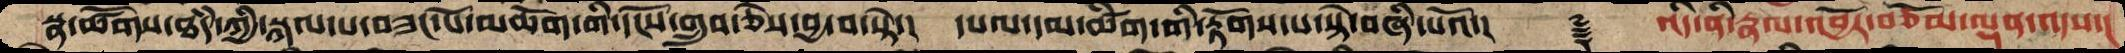སྣ་ཚོགས་ཐཾད་ཀྱི་སྐལ་པ་བཟང་པོ་མཆོག་གི་དངོས་གྲུབ་ཅེས་བྱ་བ་སྟེ་།  དཔལ་དམ་ཚིག་གི་རྟོགས་པ་སྟེ་བཞི་པའོ་།    ࿑  འདི་ནི་རྣལ་འབྱོར་བཅོམ་ལྡན་འདས་།
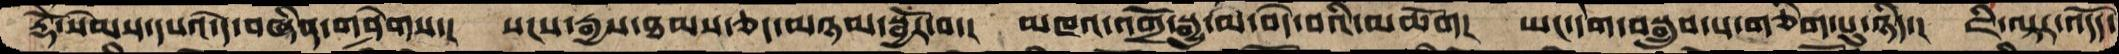རྡོེ་སེམས་དཔའ་དེ་བཞིན་གཤེགས་།  སངས་རྒྱས་ཐམས་ཅད་མཉམ་སྦྱོར་བ་།  མཁའ་འགྲོ་སྒྱུ་མ་བདེ་བའི་མཆོག།  ཡང་དག་བསྒྲུབ་པ་གཅིག་པུ་ཉིད་།  ཇི་ལྟར་འདོད་
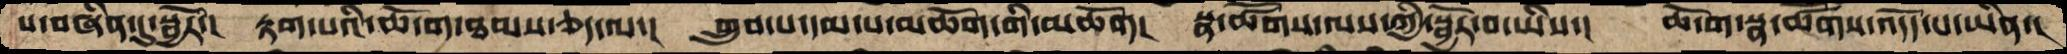པ་བཞིན་དུ་སྦྱོར་།  རྟག་པའི་ཆོ་ག་ཐམས་ཅད་ལ་།  གྲུབ་པ་དམ་པ་མཆོག་གི་མཆོག།  སྣ་ཚོགས་ལས་ཀྱི་སྦྱོར་བ་ཡིས་།  ཆོ་ག་སྣ་ཚོགས་འདོད་པ་ཡིན་།
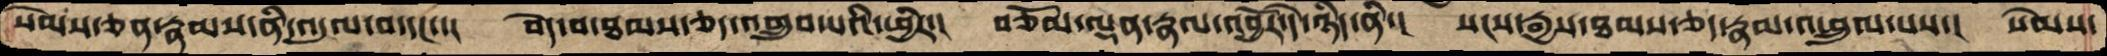སེམས་ཅན་རྣམས་ནི་འདུལ་བ་དང་་།  བདེ་བ་ཐམས་ཅད་འགྲུབ་པའི་ཕྱིར་།  བཅོམ་ལྡན་རྣལ་འབྱོར་དེ་ཉིད་ནི་།  སངས་རྒྱས་ཐམས་ཅད་རྣམ་འཕྲུལ་པས་།  སེམས་
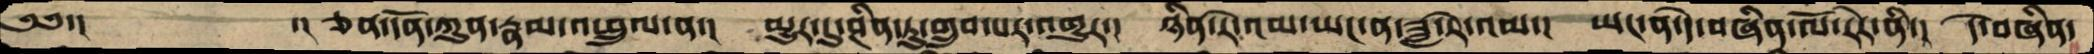༄༅་།             ་།ཅན་དོན་ཀུན་རྣམ་འཕྲུལ་ན་།  མྱུར་དུ་ཤིན་ཏུ་གྲུབ་པར་འགྱུར་།  ཉིན་རེ་འམ་ཡང་ན་ཟླ་རེ་འམ་།  ཡང་ན་དེ་བཞིན་ལོ་རེར་ནི་།  དེ་བཞིན་
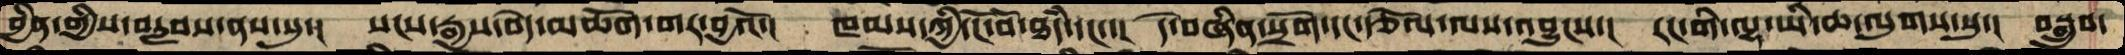བྱིན་གྱིས་བརླབས་ནས་སུ་།  སངས་རྒྱས་བདེ་མཆོག་གར་བྱའོ་།  ཁམས་ཀྱི་ངོ་བོ་ཐཾད་དང་་།   དེ་བཞིན་སྲོག་དང་རྩོལ་ལས་འབྱུངས་།  རང་གི་ལྷ་ཡི་ཆ་ལུགས་སུ་།  བསྒྲུབ་
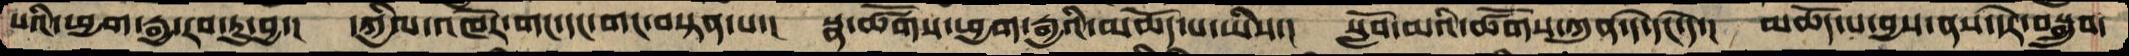པའི་ཕྱག་རྒྱ་རབ་ཏུ་བྱ་།  དཀྱིལ་འཁོར་གང་དང་གང་བསྟན་པ་།  སྣ་ཚོགས་ཕྱག་རྒྱའི་མཆོད་པ་ཡིས་།  སློབ་མའི་ཚོགས་ཀུན་དེ་དང་དེ་།  མཆོད་པ་བྱས་ནས་དེར་བསྒྲུབ་
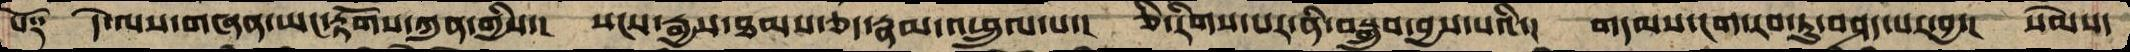པོ༑   དེ་ནས་གཞན་ཡང་རྟོགས་ཀུན་གྱིས་།  སངས་རྒྱས་ཐམས་ཅད་རྣམ་འཕྲུལ་པ་།  ཅི་རིགས་པར་ནི་བསྒྲུབ་བྱས་པའི་།  གདམས་ངག་རབ་ཏུ་བཤད་པར་བྱ་།  སེམས་
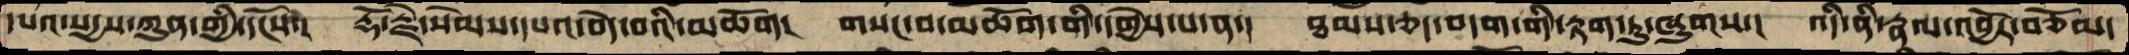དཔའ་སདྱས་ཀུན་གྱི་དངོས་།  རྡོ་རྗེ་སེམས་དཔའ་བདེ་བའི་མཆོག།   གསང་བ་མཆོག་གི་དགྱེས་པ་ན་།  ཐམས་ཅད་བདག་གི་རྟག་ཏུ་ཞུགས་།  འདི་ནི་རྣལ་འབྱོར་བཅོམ་
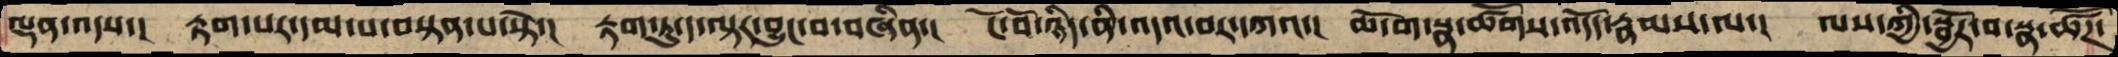ལྡན་འདས་།  རྟག་པར་དམ་པ་བསྟན་པ་སྟེ་།  རྟག་ཏུ་ད་ལྟར་བྱུང་བ་བཞིན་།  ངོ་བོ་ཉིད་ནི་འདའ་བར་དཀའ་།  ཆོ་ག་སྣ་ཚོགས་འདོད་རྣམས་ལ་།  ལས་ཀྱི་སྦྱོར་བ་སྣ་ཚོཌ་
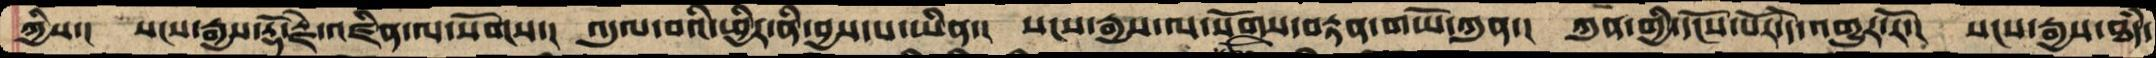ཀྱིས་།  སངས་རྒྱས་རྡོ་རྗེ་འཛིན་ལ་སོགས་།  འདུལ་བའི་ཕྱིར་ནི་བྱས་པ་ཡིན་།  སངས་རྒྱས་ལ་སོགས་བརྟན་གཡོ་ཀུན་།  ཀུན་གྱི་དངོས་པོར་དེ་འགྱུར་རོ་།  སངས་རྒྱས་ཐཾད་
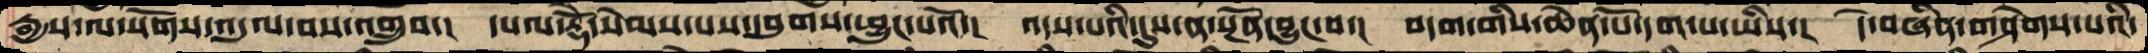རྒྱས་ལ་སོགས་འདུལ་བས་འགྲུབ་།  དཔལ་རྡོེ་སེམས་པས་དབུགས་ཕྱུང་པའོ་།  འདས་པའི་དུས་ན་སྔོན་བྱུང་བ་།  བདག་གིས་ཆེན་པོ་དག་པ་ཡིས་།  དེ་བཞིན་གཤེགས་པའི་
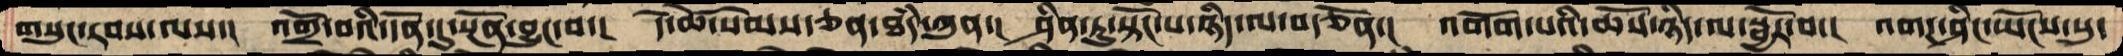གསུང་རབས་ལས་།  འགྲོ་བའི་དོན་དུ་སྔོན་བྱུང་བ་།  དེ་ཚེ་སེམས་ཅན་ཐཾད་ཀུན་།  ཤིན་ཏུ་སྟོང་པ་ཉིད་ལ་བརྩོན་།  འགོག་པའི་ཆོས་ཉིད་ལ་སྦྱོར་བ་།  འགཌ་ཤིང་ཡོངས་སུ་
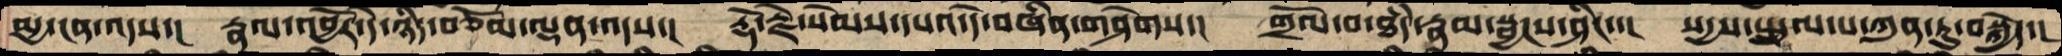མྱ་ངན་འདས་།  རྣལ་འབྱོར་དེ་ཉིད་བཅོམ་ལྡན་འདས་།  རྡོ་རྗེ་སེམས་དཔའ་དེ་བཞིན་གཤེགས་།  གྲོལ་བ་ཐཾད་རྣམ་སྦྱངས་ཤིང་་།  སདྱས་སྤྲུལ་པ་ཀུན་ཏུ་བསྐྱེད་།
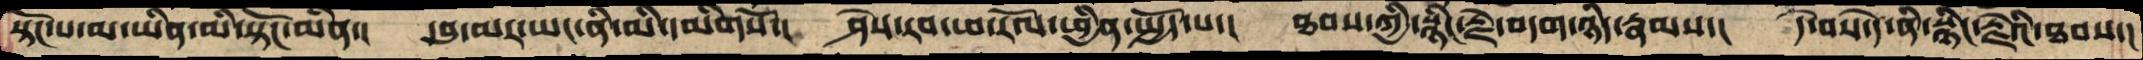སྟོང་པ་མ་ཡིན་མི་སྟོང་མིན་།  དབུ་མར་ཡང་ནི་མི་དམིགསོ་།  ཤེས་རབ་ཕ་རོལ་ཕྱིན་སྤྱོད་པ་།  ཐབས་ཀྱི་སྙིང་རྗེ་བདག་ཉིད་རྣམས་། དེ་བས་དེ་ནི་སྙིང་རྗེའི་ཐབས་།
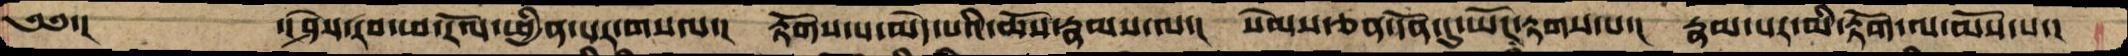༄༅་།         ་།ཤེས་རབ་ཕ་རོལ་ཕྱིན་པར་གསལ་།    རྟོགས་པ་མེད་པའི་ཆོས་རྣམས་ལ་།  སེམས་ཅན་དོན་དུ་ཡོང་རྟགས་པ་།  རྣམ་པར་མི་རྟོག་ལ་མོས་པ་།
